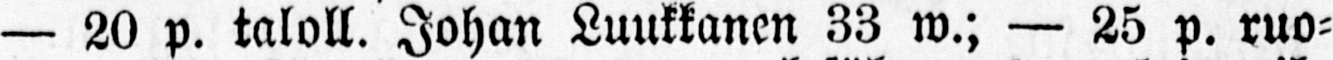— 20 p. taloll. Johan Luukkanen 33 w.; — 25 p. ruo-
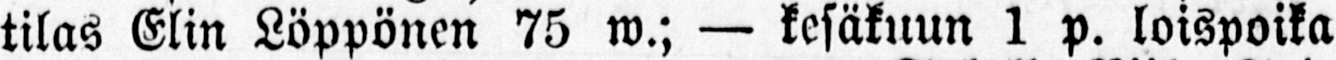tilas Elin Löppönen 75 w.; — kesäkuun 1 p. loispoika
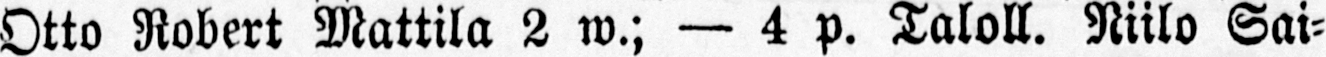Otto Robert Mattila 2 w.; — 4 p. Taloll. Niilo Sai-
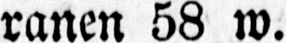ranen 58 w.
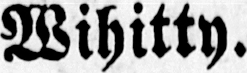Wihitty.
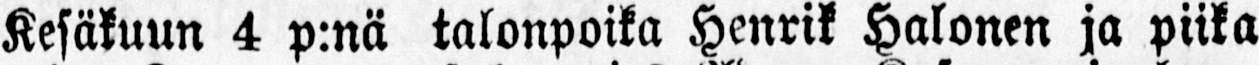Kesäkuun 4 p:nä talonpoika Henrik Halonen ja piika
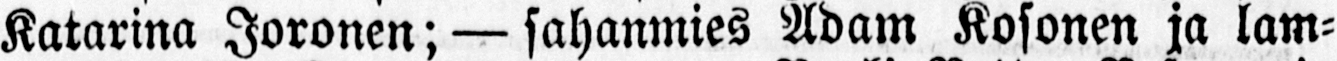Katarina Joronen; — sahanmies Adam Kosonen ja lam-
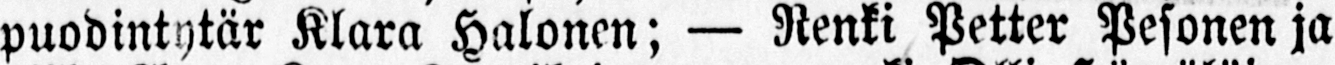puodintytär Klara Halonen; — Renki Petter Pesonen ja
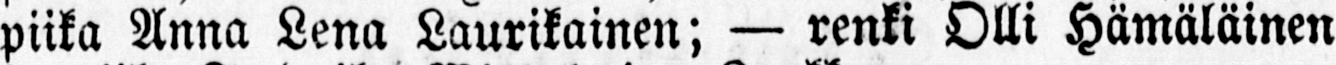piika Anna Lena Laurikainen; — renki Olli Hämäläinen
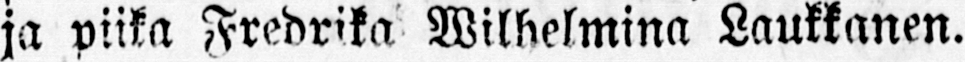ja piika Fredrika Wilhelmina Laukkanen.
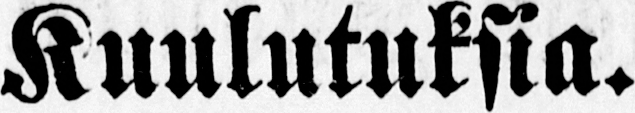Kuulutuksia.
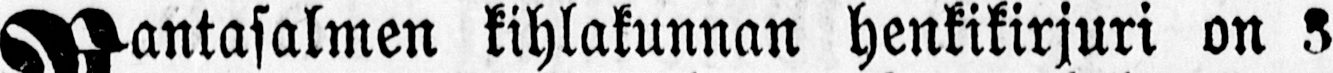Rantasalmen kihlakunnan henkikirjuri on 5
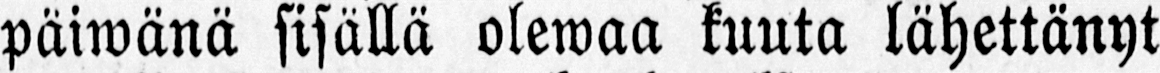päiwänä sisällä olewaa kuuta lähettänyt
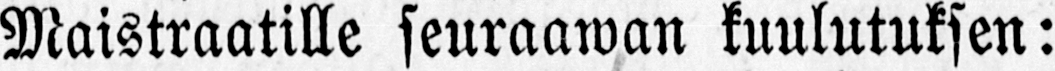Maistraatille seuraawan kuulutuksen:
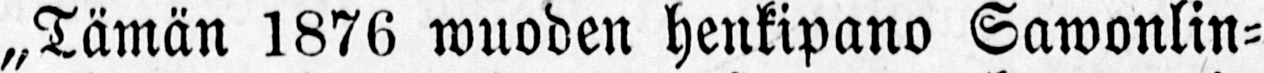„Tämän 1876 wuoden henkipano Sawonlin-
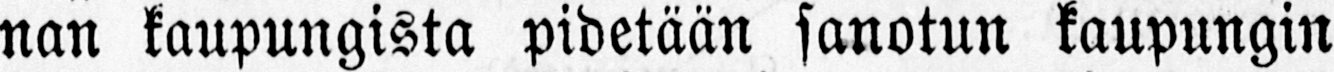nan kaupungista pidetään sanotun kaupungin
